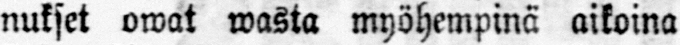nukset owat wasta myöhempinä aikoina
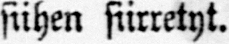siihen siirretyt.
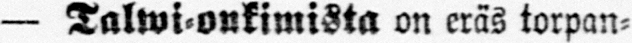— Talwi-onkimista on eräs torpan-
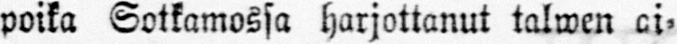poika Sotkamossa harjottanut talwen ai-
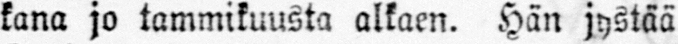kana jo tammikuusta alkaen. Hän jystää
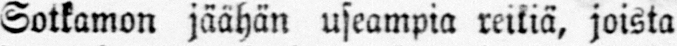Sotkamon jäähän useampia reikiä, joista
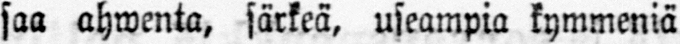saa ahwenta, särkeä, useampia kymmeniä
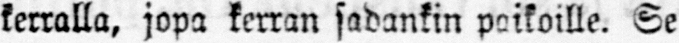kerralla, jopa kerran sadankin paikoille. Se
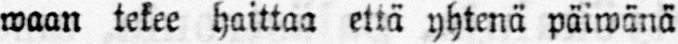waan tekee haittaa että yhtenä päiwänä
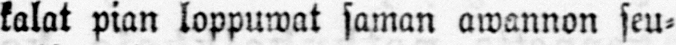kalat pian loppuwat saman awannon seu-
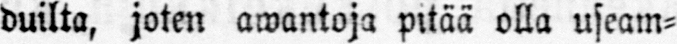duilta, joten awantoja pitää olla useam-
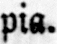pia.
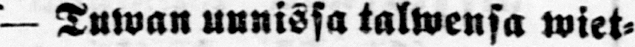— Tuwan uunissa talwensa wiet-
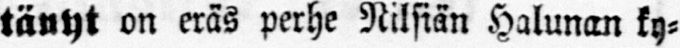tänyt on eräs perhe Nilsiän Halunan ky-
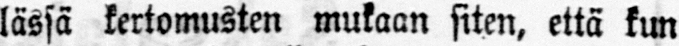lässä kertomusten mukaan siten, että kun
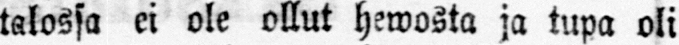talossa ei ole ollut hewosta ja tupa oli
